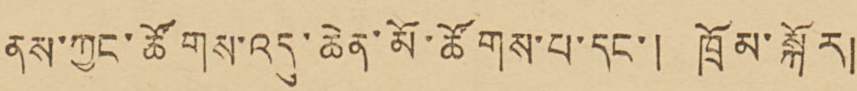ནས་ཀྱང་ཚོགས་འདུ་ཆེན་མོ་ཚོགས་པ་དང་། ཁྲོམ་སྐོར།
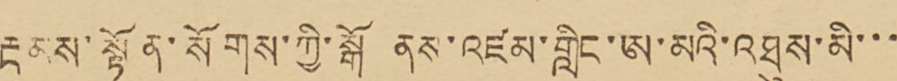རྔམས་སྟོན་སོགས་ཀྱི་སྒོ ནས་འཛམ་གླིང་ཨ་མའི་འཐུས་མི་་་
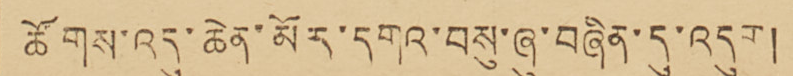ཚོགས་འདུ་ཆེན་མོར་དགའ་བསུ་ཞུ་བཞིན་དུ་འདུག།
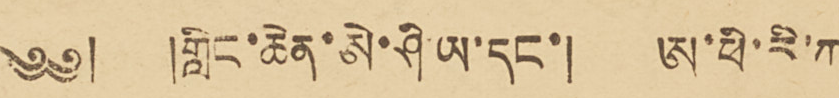༄༅། །གླིང་ཆེན་ཨེ་ཤི་ཡ་དང་། ཨ་ཕི་རི་ཀ་
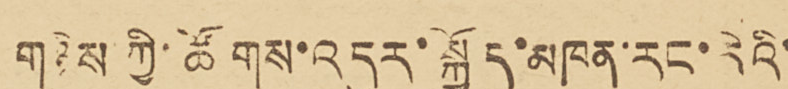གཉིས་ཀྱི་ཚོགས་འདུར་སྐྱོད་མཁན་རང་རེའི་
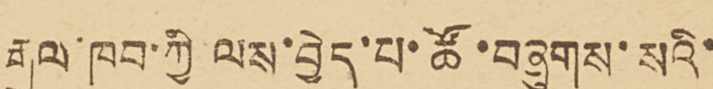རྒྱལ་ཁབ་ཀྱི ལས་བྱེད་པ་ཚོ་བཞུགས་སའི་
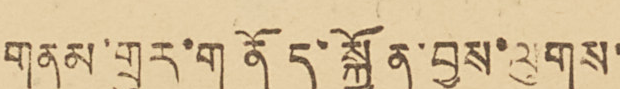གནམ་གྲུར་གནོད་སྐྱོན་བྱས་ལུགས་
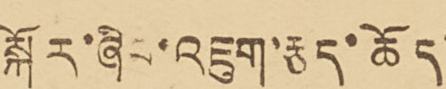སྐོར་ཞིབ་འཇུག་རྩད་ཆོད་
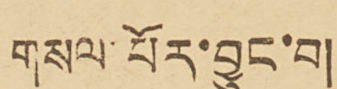གསལ་པོར་བྱུང་བ།
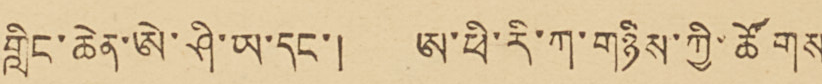གླིང་ཆེན་ཨེ་ཤི་ཡ་དང་། ཨ་ཕི་རི་ཀ་གཉིས་ཀྱི་ཚོགས་
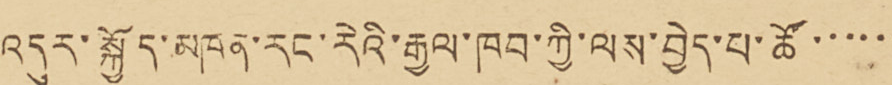འདུར་བསྐྱོད་མཁན་རང་རེའི་རྒྱལ་ཁབ་ཀྱི་ལས་བྱེད་པ་ཚོ་་་་་་་
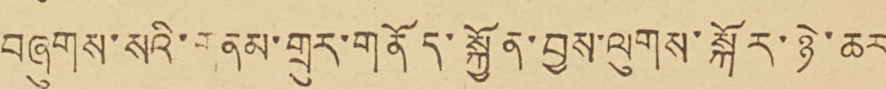བཞུགས་སའི་གནམ་གྲུར་གནོད་སྐྱོན་བྱས་ལུགས་སྐོར་ཉེ་ཆར་
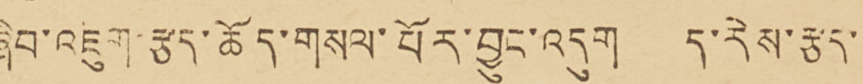ཞིབ་འཇུག་རྩད་ཆོད་གསལ་པོར་བྱུང་འདུག ད་རེས་རྩད་་་
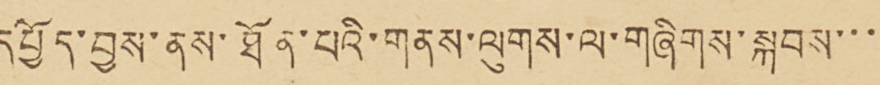དཔྱོད་བྱས་ནས་ཐོན་པའི་གནས་ལུགས་ལ་གཞིགས་སྐབས་་་་
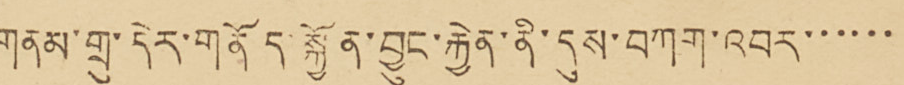གནམ་གྲུ་དེར་གནོད་སྐྱོན་བྱུང་རྐྱེན་ནི་དུས་བཀག་འབར་་་་་་
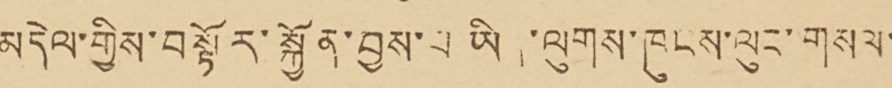མདེལ་གྱིས་བསྟོར་སྐྱོན་བྱས་པ་ཡིན་ལུགས་ཁུངས་ལུང་གསལ་
